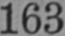163
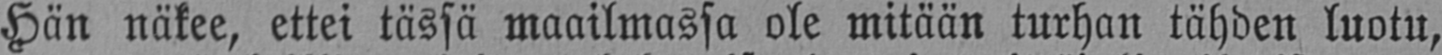Hän näkee, ettei tässä maailmassa ole mitään turhan tähden luotu,
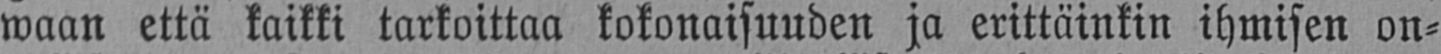waan että kaikki tarkoittaa kokonaisuuden ja erittäinkin ihmisen on-
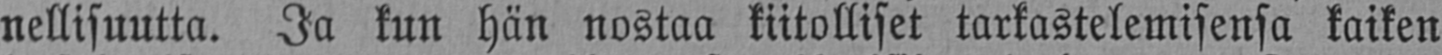nellisuutta. Ja kun hän nostaa kiitolliset tarkastelemisensa kaiken
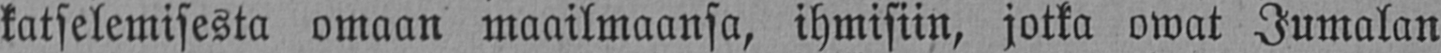katselemisesta omaan maailmaansa, ihmisiin, jotka owat Jumalan
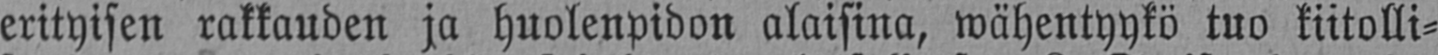erityisen rakkauden ja huolenpidon alaisina, wähentyykö tuo kiitolli-
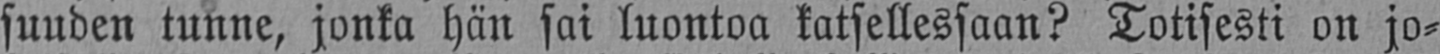suuden tunne, jonka hän sai luontoa katsellessaan? Totisesti on jo-
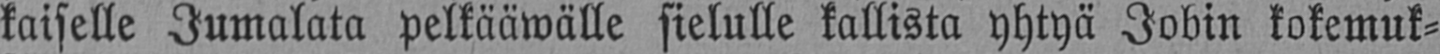kaiselle Jumalata pelkääwälle sielulle kallista yhtyä Jobin kokemuk-
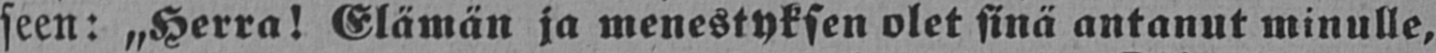seen: „Herra! Elämän ja menestyksen olet sinä antanut minulle,
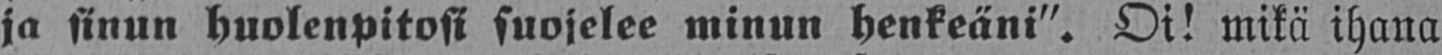ja sinun huolenpitosi suojelee minun henkeäni". Oi! mikä ihana
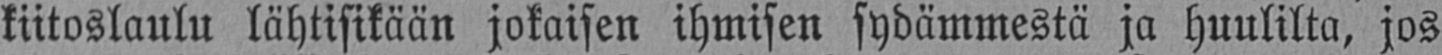kiitoslaulu lähtisikään jokaisen ihmisen sydämmestä ja huulilta, jos
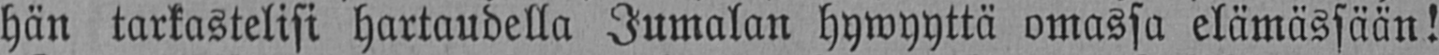hän tarkastelisi hartaudella Jumalan hywyyttä omassa elämässään!
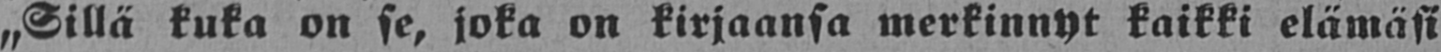„Sillä kuka on se, joka on kirjaansa merkinnyt kaikki elämäsi
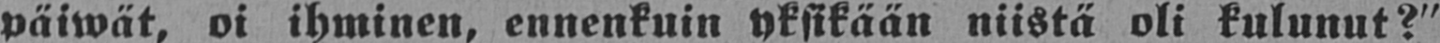päiwät, oi ihminen, ennenkuin yksikään niistä oli kulunut?"
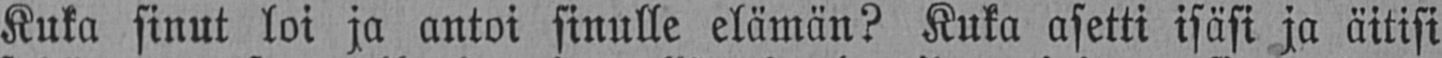Kuka sinut loi ja antoi sinulle elämän? Kuka asetti isäsi ja äitisi
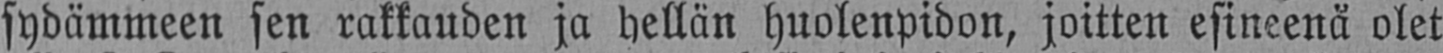sydämmeen sen rakkauden ja hellän huolenpidon, joitten esineenä olet
